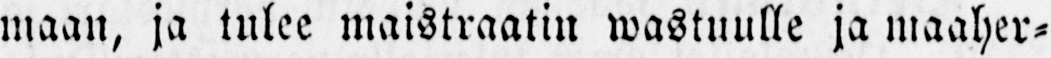maan, ja tulee maistraatin wastuulle ja maaher-
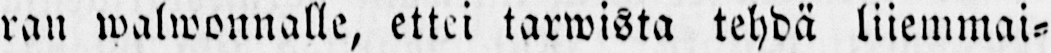ran walwonnalle, ettei tarwista tehdä liiemmai-
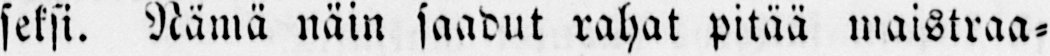seksi. Nämä näin saadut rahat pitää maistraa-
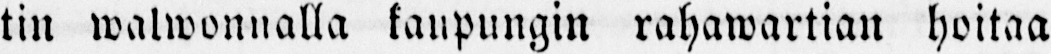tin walwonnalla kaupungin rahawartian hoitaa
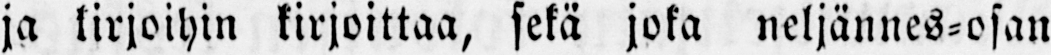ja kirjoihin kirjoittaa, sekä joka neljännes-osan
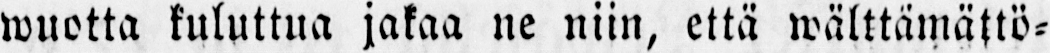wuotta kuluttua jakaa ne niin, että wälttämättö-
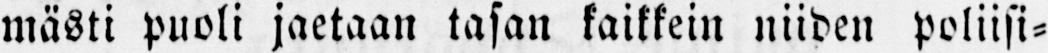mästi puoli jaetaan tasan kaikkein niiden poliisi-
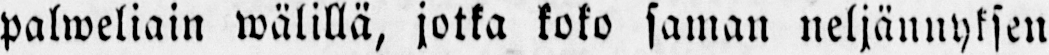palweliain wälillä, jotka koko saman neljännyksen
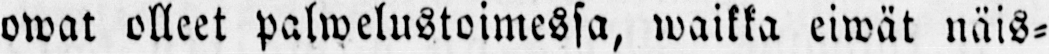owat olleet palwelustoimessa, waikka eiwät näis-
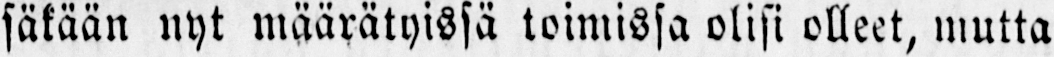säkään nyt määrätyissä toimissa olisi olleet, mutta
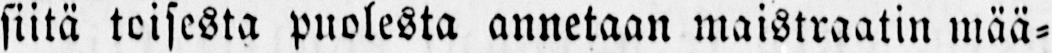siitä toisesta puolesta annetaan maistraatin mää-
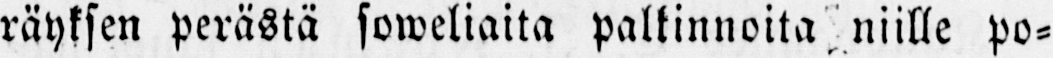räyksen perästä soweliaita palkinnoita niille po-
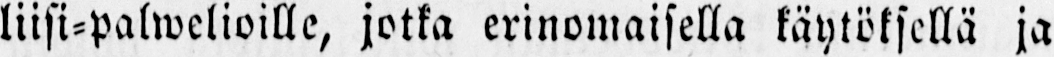liisi-palwelioille, jotka erinomaisella käytöksellä ja
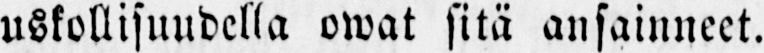uskollisuudella owat sitä ansainneet.
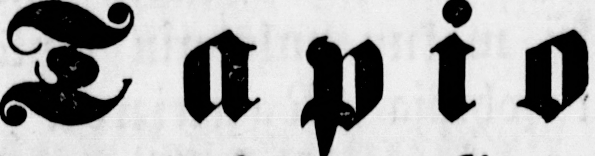Tapio
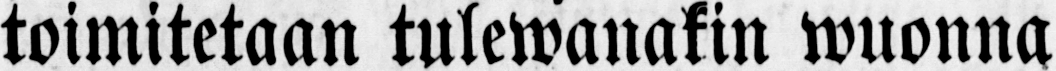toimitetaan tulewanakin wuonna
